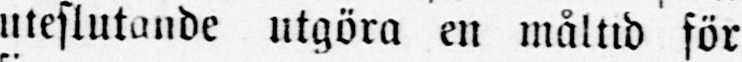uteslutande utgöra en måltid för
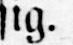sig.
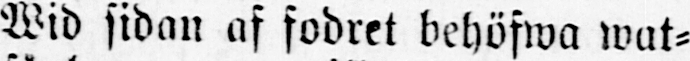Wid sidan af fodret behöfwa wat-
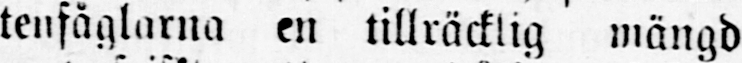tenfåglarna en tillräcklig mängd
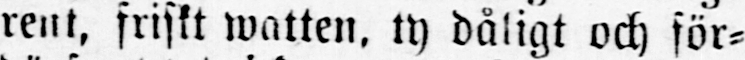rent, friskt watten, ty dåligt och för-
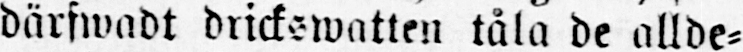därfwadt drickswatten tåla de allde-
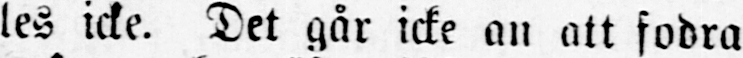les icke. Det går icke an att fodra
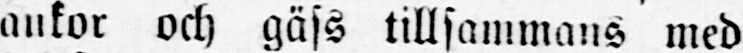ankor och gäss tillsammans med
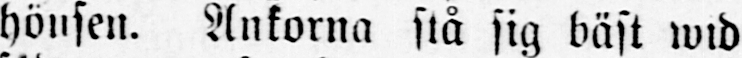hönsen. Ankorna stå sig bäst wid
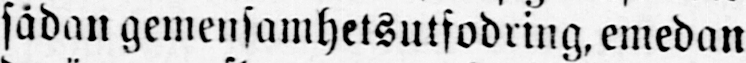sådan gemensamhetsutfodring, emedan
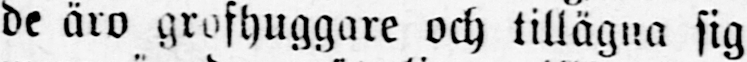de äro grofhuggare och tillägna sig
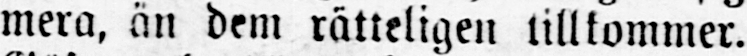mera, än dem rätteligen tillkommer.
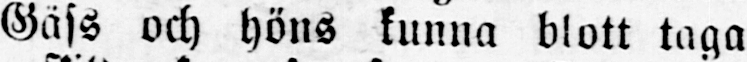Gäss och höns kunna blott taga
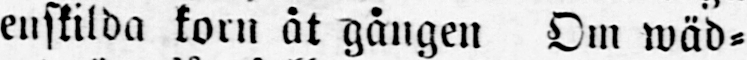enskilda korn åt gången Om wäd-
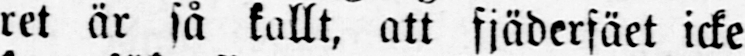ret är så kallt, att fjäderfäet icke
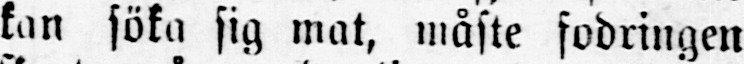kan söka sig mat, måste fodringen
